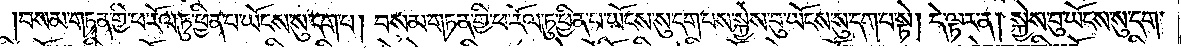བསམ་གཏན་གྱི་ཕ་རོལ་ཏུ་ཕྱིན་པ་ཡོངས་སུ་དག་པ། བསམ་གཏན་གྱི་ཕ་རོལ་ཏུ་ཕྱིན་པ་ཡོངས་སུ་དག་པས་སྐྱེས་བུ་ཡོངས་སུ་དག་པ་སྟེ། དེ་ལྟར་ན། སྐྱེས་བུ་ཡོངས་སུ་དག་
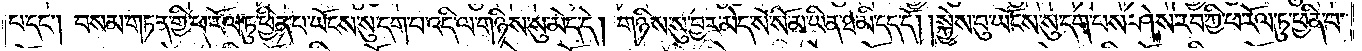པ་དང༌། བསམ་གཏན་གྱི་ཕ་རོལ་ཏུ་ཕྱིན་པ་ཡོངས་སུ་དག་པ་འདི་ལ་གཉིས་སུ་མེད་དེ། གཉིས་སུ་བྱར་མེད་སོ་སོ་མ་ཡིན་ཐ་མི་དད་དོ། །སྐྱེས་བུ་ཡོངས་སུ་དག་པས་ཤེས་རབ་ཀྱི་ཕ་རོལ་ཏུ་ཕྱིན་པ་
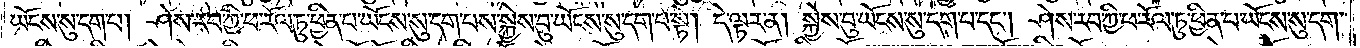ཡོངས་སུ་དག་པ། ཤེས་རབ་ཀྱི་ཕ་རོལ་ཏུ་ཕྱིན་པ་ཡོངས་སུ་དག་པས་སྐྱེས་བུ་ཡོངས་སུ་དག་པ་སྟེ། དེ་ལྟར་ན། སྐྱེས་བུ་ཡོངས་སུ་དག་པ་དང༌། ཤེས་རབ་ཀྱི་ཕ་རོལ་ཏུ་ཕྱིན་པ་ཡོངས་སུ་དག་
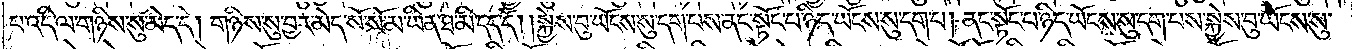པ་འདི་ལ་གཉིས་སུ་མེད་དེ། གཉིས་སུ་བྱར་མེད་སོ་སོ་མ་ཡིན་ཐ་མི་དད་དོ། །སྐྱེས་བུ་ཡོངས་སུ་དག་པས་ནང་སྟོང་པ་ཉིད་ཡོངས་སུ་དག་པ། ནང་སྟོང་པ་ཉིད་ཡོངས་སུ་དག་པས་སྐྱེས་བུ་ཡོངས་སུ་
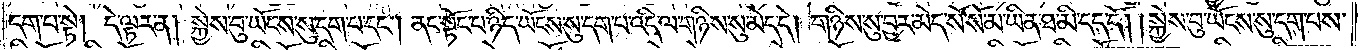དག་པ་སྟེ། དེ་ལྟར་ན། སྐྱེས་བུ་ཡོངས་སུ་དག་པ་དང༌། ནང་སྟོང་པ་ཉིད་ཡོངས་སུ་དག་པ་འདི་ལ་གཉིས་སུ་མེད་དེ། གཉིས་སུ་བྱར་མེད་སོ་སོ་མ་ཡིན་ཐ་མི་དད་དོ། །སྐྱེས་བུ་ཡོངས་སུ་དག་པས་
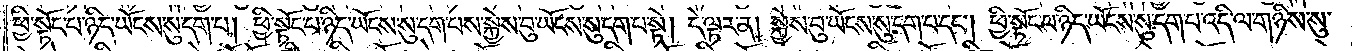ཕྱི་སྟོང་པ་ཉིད་ཡོངས་སུ་དག་པ། ཕྱི་སྟོང་པ་ཉིད་ཡོངས་སུ་དག་པས་སྐྱེས་བུ་ཡོངས་སུ་དག་པ་སྟེ། དེ་ལྟར་ན། སྐྱེས་བུ་ཡོངས་སུ་དག་པ་དང༌། ཕྱི་སྟོང་པ་ཉིད་ཡོངས་སུ་དག་པ་འདི་ལ་གཉིས་སུ་
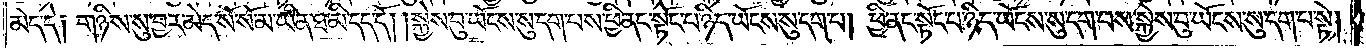མེད་དེ༑ གཉིས་སུ་བྱར་མེད་སོ་སོ་མ་ཡིན་ཐ་མི་དད་དོ། །སྐྱེས་བུ་ཡོངས་སུ་དག་པས་ཕྱི་ནང་སྟོང་པ་ཉིད་ཡོངས་སུ་དག་པ། ཕྱི་ནང་སྟོང་པ་ཉིད་ཡོངས་སུ་དག་པས་སྐྱེས་བུ་ཡོངས་སུ་དག་པ་སྟེ།
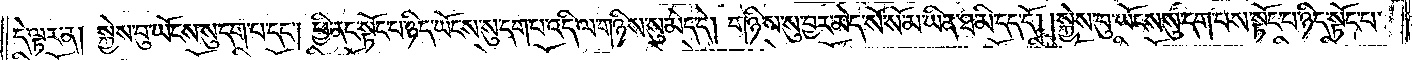དེ་ལྟར་ན། སྐྱེས་བུ་ཡོངས་སུ་དག་པ་དང༌། ཕྱི་ནང་སྟོང་པ་ཉིད་ཡོངས་སུ་དག་པ་འདི་ལ་གཉིས་སུ་མེད་དེ། གཉིས་སུ་བྱར་མེད་སོ་སོ་མ་ཡིན་ཐ་མི་དད་དོ། །སྐྱེས་བུ་ཡོངས་སུ་དག་པས་སྟོང་པ་ཉིད་སྟོང་པ་
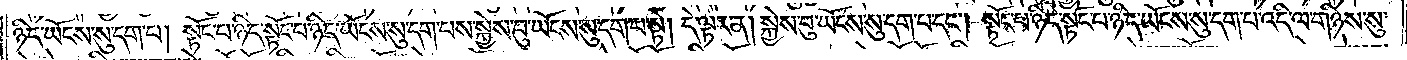ཉིད་ཡོངས་སུ་དག་པ། སྟོང་པ་ཉིད་སྟོང་པ་ཉིད་ཡོངས་སུ་དག་པས་སྐྱེས་བུ་ཡོངས་སུ་དག་པ་སྟེ། དེ་ལྟར་ན། སྐྱེས་བུ་ཡོངས་སུ་དག་པ་དང༌། སྟོང་པ་ཉིད་སྟོང་པ་ཉིད་ཡོངས་སུ་དག་པ་འདི་ལ་གཉིས་སུ་
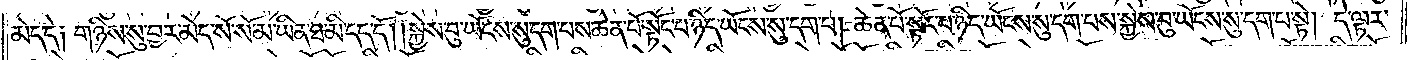མེད་དེ༑ གཉིས་སུ་བྱར་མེད་སོ་སོ་མ་ཡིན་ཐ་མི་དད་དོ། །སྐྱེས་བུ་ཡོངས་སུ་དག་པས་ཆེན་པོ་སྟོང་པ་ཉིད་ཡོངས་སུ་དག་པ། ཆེན་པོ་སྟོང་པ་ཉིད་ཡོངས་སུ་དག་པས་སྐྱེས་བུ་ཡོངས་སུ་དག་པ་སྟེ། དེ་ལྟར་
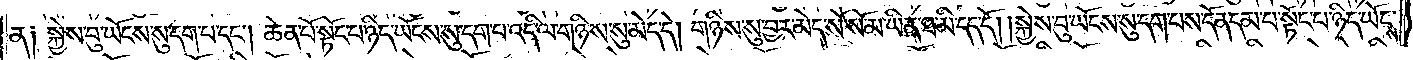ན༑ སྐྱེས་བུ་ཡོངས་སུ་དག་པ་དང༌། ཆེན་པོ་སྟོང་པ་ཉིད་ཡོངས་སུ་དག་པ་འདི་ལ་གཉིས་སུ་མེད་དེ། གཉིས་སུ་བྱར་མེད་སོ་སོ་མ་ཡིན་ཐ་མི་དད་དོ། །སྐྱེས་བུ་ཡོངས་སུ་དག་པས་དོན་དམ་པ་སྟོང་པ་ཉིད་ཡོངས་
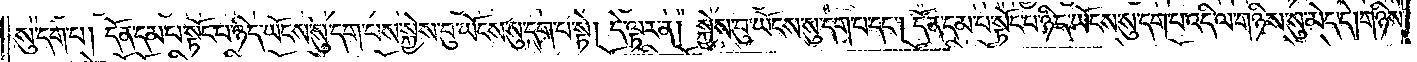སུ་དག་པ། དོན་དམ་པ་སྟོང་པ་ཉིད་ཡོངས་སུ་དག་པས་སྐྱེས་བུ་ཡོངས་སུ་དག་པ་སྟེ། དེ་ལྟར་ན། སྐྱེས་བུ་ཡོངས་སུ་དག་པ་དང༌། དོན་དམ་པ་སྟོང་པ་ཉིད་ཡོངས་སུ་དག་པ་འདི་ལ་གཉིས་སུ་མེད་དེ། གཉིས་
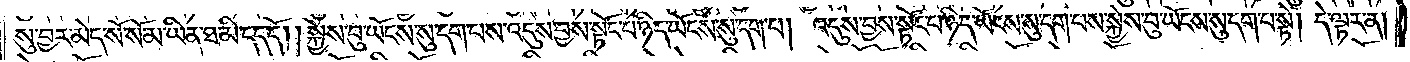སུ་བྱར་མེད་སོ་སོ་མ་ཡིན་ཐ་མི་དད་དོ། །སྐྱེས་བུ་ཡོངས་སུ་དག་པས་འདུས་བྱས་སྟོང་པ་ཉིད་ཡོངས་སུ་དག་པ། འདུས་བྱས་སྟོང་པ་ཉིད་ཡོངས་སུ་དག་པས་སྐྱེས་བུ་ཡོངས་སུ་དག་པ་སྟེ། དེ་ལྟར་ན།
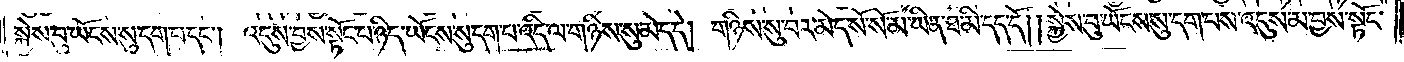སྐྱེས་བུ་ཡོངས་སུ་དག་པ་དང༌། འདུས་བྱས་སྟོང་པ་ཉིད་ཡོངས་སུ་དག་པ་འདི་ལ་གཉིས་སུ་མེད་དེ། གཉིས་སུ་བྱར་མེད་སོ་སོ་མ་ཡིན་ཐ་མི་དད་དོ། །སྐྱེས་བུ་ཡོངས་སུ་དག་པས་འདུས་མ་བྱས་སྟོང་
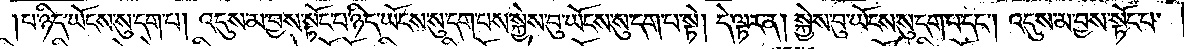པ་ཉིད་ཡོངས་སུ་དག་པ། འདུས་མ་བྱས་སྟོང་པ་ཉིད་ཡོངས་སུ་དག་པས་སྐྱེས་བུ་ཡོངས་སུ་དག་པ་སྟེ། དེ་ལྟར་ན། སྐྱེས་བུ་ཡོངས་སུ་དག་པ་དང༌། འདུས་མ་བྱས་སྟོང་པ་
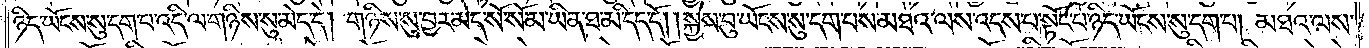ཉིད་ཡོངས་སུ་དག་པ་འདི་ལ་གཉིས་སུ་མེད་དེ། གཉིས་སུ་བྱར་མེད་སོ་སོ་མ་ཡིན་ཐ་མི་དད་དོ། །སྐྱེས་བུ་ཡོངས་སུ་དག་པས་མཐའ་ལས་འདས་པ་སྟོང་པ་ཉིད་ཡོངས་སུ་དག་པ། མཐའ་ལས་
